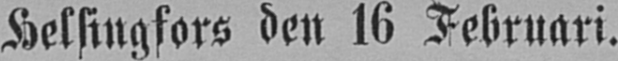Helsingfors den 16 Februari.
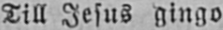Till Jesus gingo
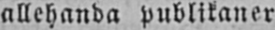allehanda publikaner
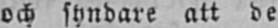och syndare att de
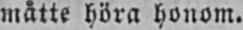måtte höra honom.
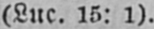(Luc. 15: 1).
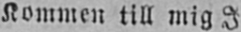Kommen till mig I
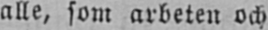alle, som arbeten och
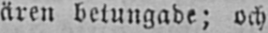ären betungade: och
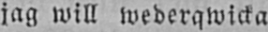jag will wederqwicka
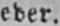eder.
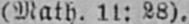(Math. 11: 28).
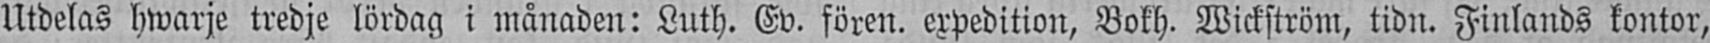Utdelas hwarje tredje lördag i månaden: Luth. Ev. fören. expedition, Bokh. Wickström, tidn. Finlands kontor,
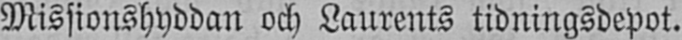Missionshyddan och Laurents tidningsdepot.
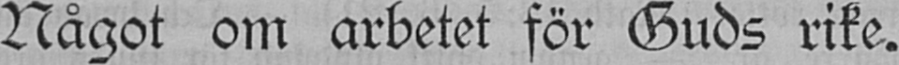Något om arbetet för Guds rike.
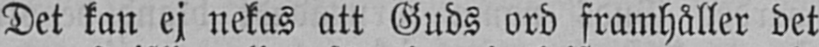Det kan ej nekas att Guds ord framhåller det
